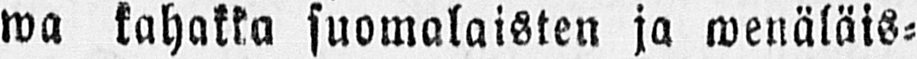wa kahakka suomalaisten ja wenäläis-
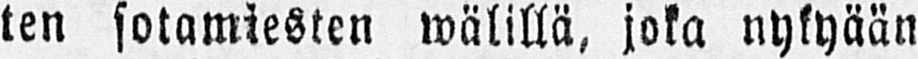ten sotamiesten wälillä, joka nykyään
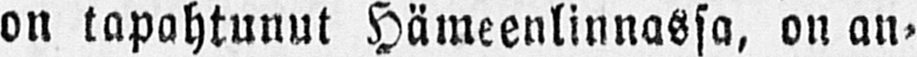on tapahtunut Hämeenlinnassa, on an-
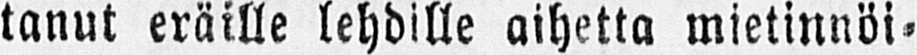tanut eräille lehdille aihetta mietinnöi-
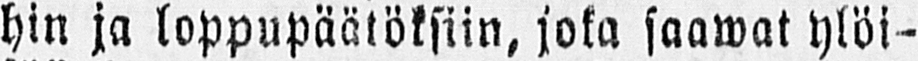hin ja loppupäätöksiin, joka saawat ylöi-
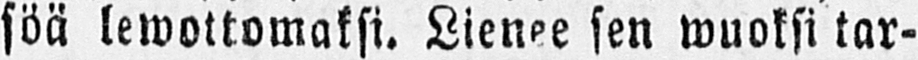söä lewottomaksi. Lienee sen wuoksi tar-
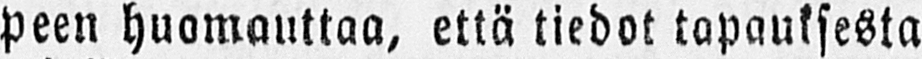peen huomauttaa, että tiedot tapauksesta
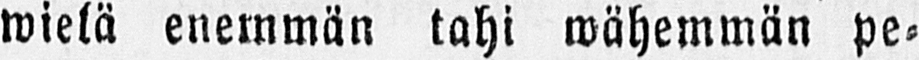wielä enemmän tahi wähemmän pe-
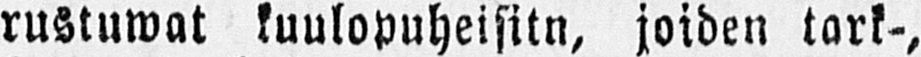rustuwat kuulopuheisitn, joiden tark-,
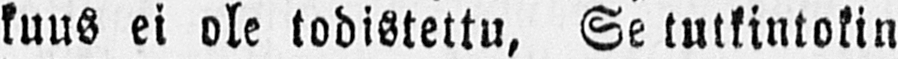kuus ei ole todistettu, Se tutkintokin
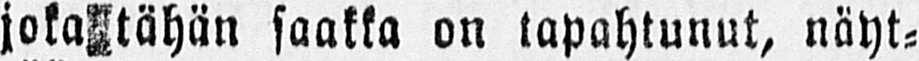joka tähän saakka on tapahtunut, näyt-
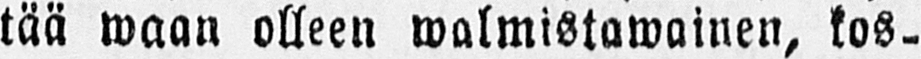tää waan olleen walmistawainen, kos-
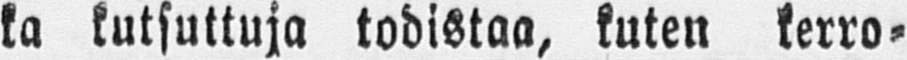ka kutsuttuja todistaa, kuten kerro-
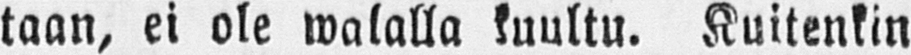taan, ei ole walalla kuultu. Kuitenkin
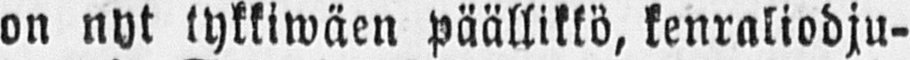on nyt tykkiwäen päällikkö, kenraliodju-
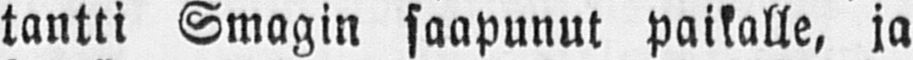tantti Smagin saapunut paikalle, ja
